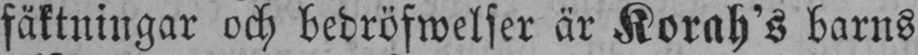fäktningar och bedröfwelser är Korah's barns
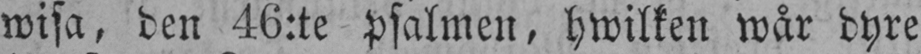wisa, den 46:te psalmen, hwilken wår dyre
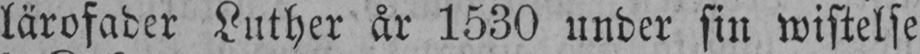lärofader Luther år 1530 under sin wistelse
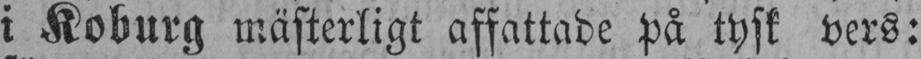i Koburg mästerligt affattade på tysk vers:
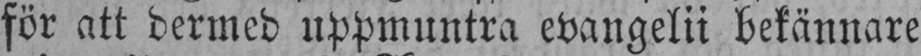för att dermed uppmuntra evangelii bekännare
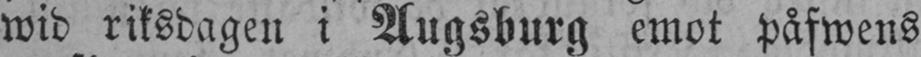wid riksdagen i Augsburg emot påfwens
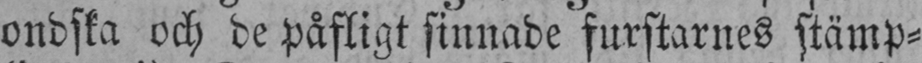ondska och de påfligt sinnade furstarnes stämp-
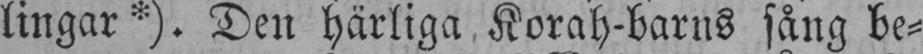lingar*). Den härliga Korah-barns sång be-
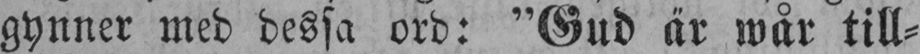gynner med dessa ord: "Gud är wår till-
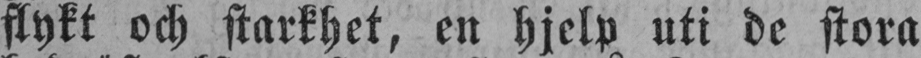flykt och starkhet, en hjelp uti de stora
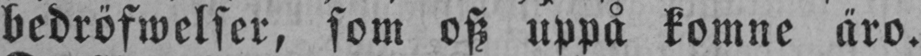bedröfwelser, som osz uppå komne äro.
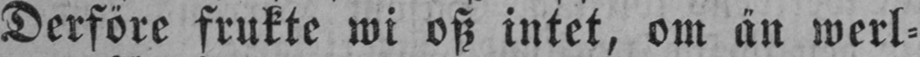Derföre frukte wi osz intet, om än werl-
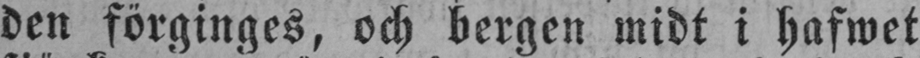den förginges, och bergen midt i hafwet
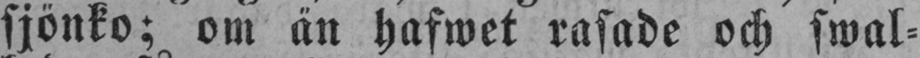sjönko; om än hafwet rasade och swal-
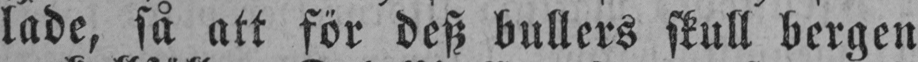lade, så att för desz bullers skull bergen
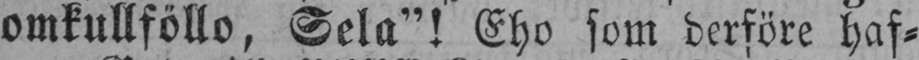omkullföllo, Sela"! Eho som derföre haf-
